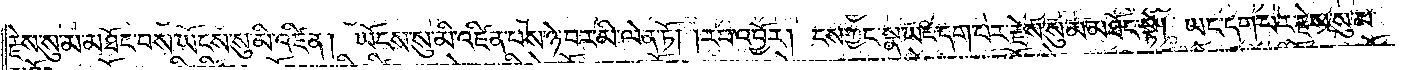རྗེས་སུ་མ་མཐོང་བས་ཡོངས་སུ་མི་འཛིན། ཡོངས་སུ་མི་འཛིན་པས་ཉེ་བར་མི་ལེན་ཏོ། །རབ་འབྱོར། ངས་ཀྱང་སྣ་ཡང་དག་པར་རྗེས་སུ་མ་མཐོང་སྟེ། ཡང་དག་པར་རྗེས་སུ་མ་
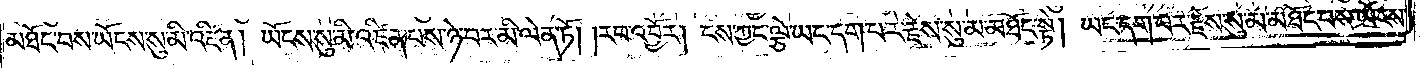མཐོང་བས་ཡོངས་སུ་མི་འཛིན། ཡོངས་སུ་མི་འཛིན་པས་ཉེ་བར་མི་ལེན་ཏོ། །རབ་འབྱོར། ངས་ཀྱང་ལྕེ་ཡང་དག་པར་རྗེས་སུ་མ་མཐོང་སྟེ། ཡང་དག་པར་རྗེས་སུ་མ་མཐོང་བས་ཡོངས་
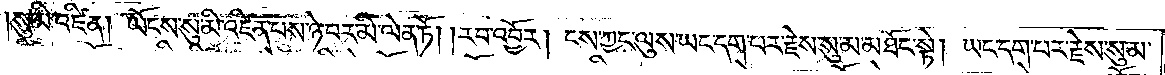སུ་མི་འཛིན། ཡོངས་སུ་མི་འཛིན་པས་ཉེ་བར་མི་ལེན་ཏོ། །རབ་འབྱོར། ངས་ཀྱང་ལུས་ཡང་དག་པར་རྗེས་སུ་མ་མཐོང་སྟེ། ཡང་དག་པར་རྗེས་སུ་མ་
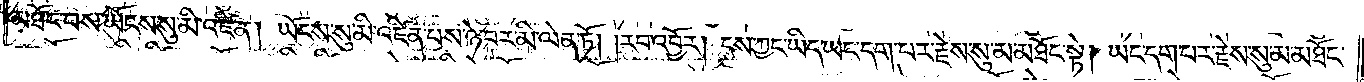མཐོང་བས་ཡོངས་སུ་མི་འཛིན། ཡོངས་སུ་མི་འཛིན་པས་ཉེ་བར་མི་ལེན་ཏོ། །རབ་འབྱོར། ངས་ཀྱང་ཡིད་ཡང་དག་པར་རྗེས་སུ་མ་མཐོང་སྟེ། ཡང་དག་པར་རྗེས་སུ་མ་མཐོང་
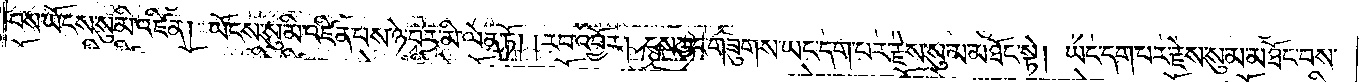བས་ཡོངས་སུ་མི་འཛིན། ཡོངས་སུ་མི་འཛིན་པས་ཉེ་བར་མི་ལེན་ཏོ། །རབ་འབྱོར། ངས་ཀྱང་གཟུགས་ཡང་དག་པར་རྗེས་སུ་མ་མཐོང་སྟེ། ཡང་དག་པར་རྗེས་སུ་མ་མཐོང་བས་
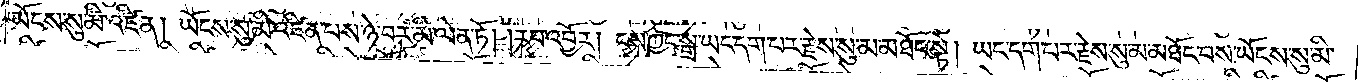ཡོངས་སུ་མི་འཛིན། ཡོངས་སུ་མི་འཛིན་པས་ཉེ་བར་མི་ལེན་ཏོ། །རབ་འབྱོར། ངས་ཀྱང་སྒྲ་ཡང་དག་པར་རྗེས་སུ་མ་མཐོང་སྟེ། ཡང་དག་པར་རྗེས་སུ་མ་མཐོང་བས་ཡོངས་སུ་མི་
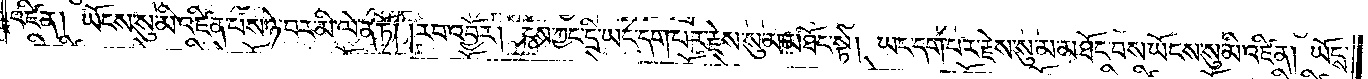འཛིན། ཡོངས་སུ་མི་འཛིན་པས་ཉེ་བར་མི་ལེན་ཏོ། །རབ་འབྱོར། ངས་ཀྱང་དྲི་ཡང་དག་པར་རྗེས་སུ་མ་མཐོང་སྟེ། ཡང་དག་པར་རྗེས་སུ་མ་མཐོང་བས་ཡོངས་སུ་མི་འཛིན། ཡོངས་
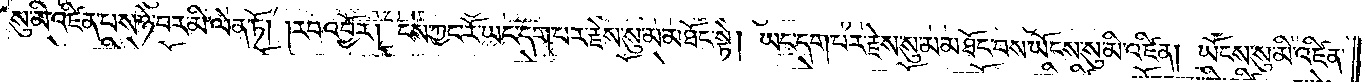སུ་མི་འཛིན་པས་ཉེ་བར་མི་ལེན་ཏོ། །རབ་འབྱོར། ངས་ཀྱང་རོ་ཡང་དག་པར་རྗེས་སུ་མ་མཐོང་སྟེ། ཡང་དག་པར་རྗེས་སུ་མ་མཐོང་བས་ཡོངས་སུ་མི་འཛིན། ཡོངས་སུ་མི་འཛིན་
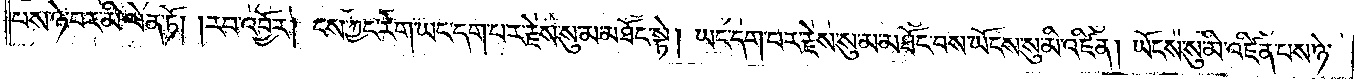པས་ཉེ་བར་མི་ལེན་ཏོ། །རབ་འབྱོར། ངས་ཀྱང་རེག་ཡང་དག་པར་རྗེས་སུ་མ་མཐོང་སྟེ། ཡང་དག་པར་རྗེས་སུ་མ་མཐོང་བས་ཡོངས་སུ་མི་འཛིན། ཡོངས་སུ་མི་འཛིན་པས་ཉེ་
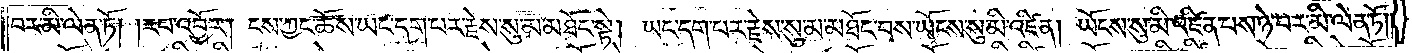བར་མི་ལེན་ཏོ། །རབ་འབྱོར། ངས་ཀྱང་ཆོས་ཡང་དག་པར་རྗེས་སུ་མ་མཐོང་སྟེ། ཡང་དག་པར་རྗེས་སུ་མ་མཐོང་བས་ཡོངས་སུ་མི་འཛིན། ཡོངས་སུ་མི་འཛིན་པས་ཉེ་བར་མི་ལེན་ཏོ། །
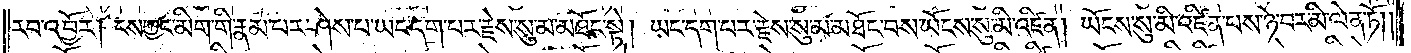རབ་འབྱོར། ངས་ཀྱང་མིག་གི་རྣམ་པར་ཤེས་པ་ཡང་དག་པར་རྗེས་སུ་མ་མཐོང་སྟེ། ཡང་དག་པར་རྗེས་སུ་མ་མཐོང་བས་ཡོངས་སུ་མི་འཛིན། ཡོངས་སུ་མི་འཛིན་པས་ཉེ་བར་མི་ལེན་ཏོ། །
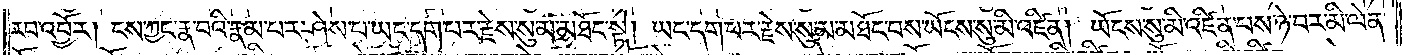རབ་འབྱོར། ངས་ཀྱང་རྣ་བའི་རྣམ་པར་ཤེས་པ་ཡང་དག་པར་རྗེས་སུ་མ་མཐོང་སྟེ། ཡང་དག་པར་རྗེས་སུ་མ་མཐོང་བས་ཡོངས་སུ་མི་འཛིན། ཡོངས་སུ་མི་འཛིན་པས་ཉེ་བར་མི་ལེན་
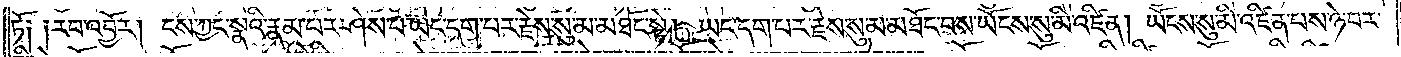ཏོ༑ ༑རབ་འབྱོར། ངས་ཀྱང་སྣའི་རྣམ་པར་ཤེས་པ་ཡང་དག་པར་རྗེས་སུ་མ་མཐོང་སྟེ། ཡང་དག་པར་རྗེས་སུ་མ་མཐོང་བས་ཡོངས་སུ་མི་འཛིན། ཡོངས་སུ་མི་འཛིན་པས་ཉེ་བར་
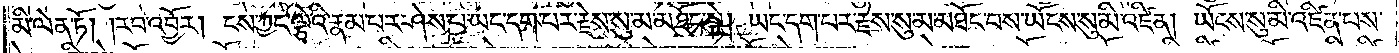མི་ལེན་ཏོ། །རབ་འབྱོར། ངས་ཀྱང་ལྕེའི་རྣམ་པར་ཤེས་པ་ཡང་དག་པར་རྗེས་སུ་མ་མཐོང་སྟེ། ཡང་དག་པར་རྗེས་སུ་མ་མཐོང་བས་ཡོངས་སུ་མི་འཛིན། ཡོངས་སུ་མི་འཛིན་པས་
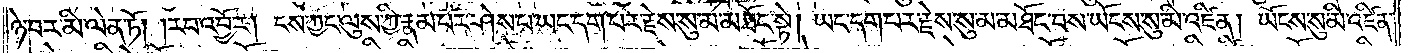ཉེ་བར་མི་ལེན་ཏོ། །རབ་འབྱོར། ངས་ཀྱང་ལུས་ཀྱི་རྣམ་པར་ཤེས་པ་ཡང་དག་པར་རྗེས་སུ་མ་མཐོང་སྟེ། ཡང་དག་པར་རྗེས་སུ་མ་མཐོང་བས་ཡོངས་སུ་མི་འཛིན། ཡོངས་སུ་མི་འཛིན་
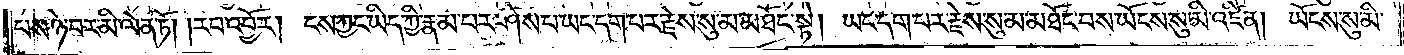པས་ཉེ་བར་མི་ལེན་ཏོ། །རབ་འབྱོར། ངས་ཀྱང་ཡིད་ཀྱི་རྣམ་པར་ཤེས་པ་ཡང་དག་པར་རྗེས་སུ་མ་མཐོང་སྟེ། ཡང་དག་པར་རྗེས་སུ་མ་མཐོང་བས་ཡོངས་སུ་མི་འཛིན། ཡོངས་སུ་མི་
